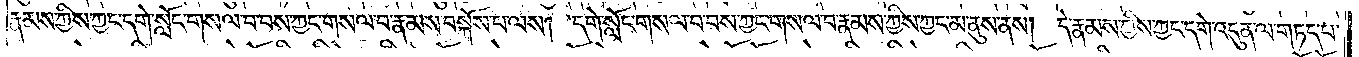རྣམས་ཀྱིས་ཀྱང་དགེ་སློང་གསལ་བ་བས་ཀྱང་གསལ་བ་རྣམས་བསྐོས་པ་ལས། དགེ་སློང་གསལ་བ་བས་ཀྱང་གསལ་བ་རྣམས་ཀྱིས་ཀྱང་མ་ནུས་ནས། དེ་རྣམས་ཀྱིས་ཀྱང་དགེ་འདུན་ལ་གཏད་པ་
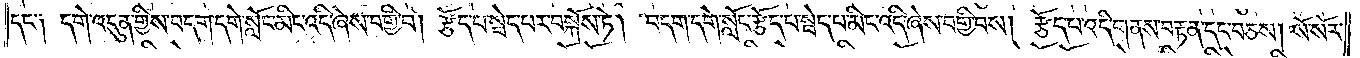དང༌༑ དགེ་འདུན་གྱིས་བདག་དགེ་སློང་མིང་འདི་ཞེས་བགྱི་བ། རྩོད་པ་སྦེད་པར་བསྐོས་ཏེ། བདག་དགེ་སློང་རྩོད་པ་སྦེད་པ་མིང་འདི་ཞེས་བགྱི་བས། རྩོད་པ་འདི་གནས་བརྟན་དང་བཅས། སོ་སོར་
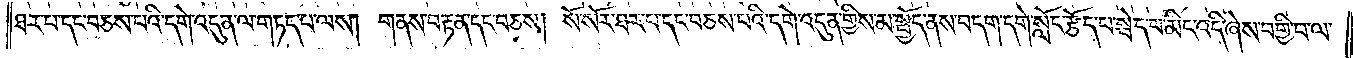ཐར་པ་དང་བཅས་པའི་དགེ་འདུན་ལ་གཏད་པ་ལས། གནས་བརྟན་དང་བཅས། སོ་སོར་ཐར་པ་དང་བཅས་པའི་དགེ་འདུན་གྱིས་མ་སྤྱོད་ནས་བདག་དགེ་སློང་རྩོད་པ་སྦེད་པ་མིང་འདི་ཞེས་བགྱི་བ་ལ་
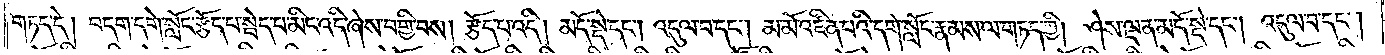གཏད་དེ། བདག་དགེ་སློང་རྩོད་པ་སྦེད་པ་མིང་འདི་ཞེས་བགྱི་བས། རྩོད་པ་འདི། མདོ་སྡེ་དང༌། འདུལ་བ་དང༌། མ་མོ་འཛིན་པའི་དགེ་སློང་རྣམས་ལ་གཏད་ཀྱི། ཤེས་ལྡན་མདོ་སྡེ་དང༌། འདུལ་བ་དང༌།
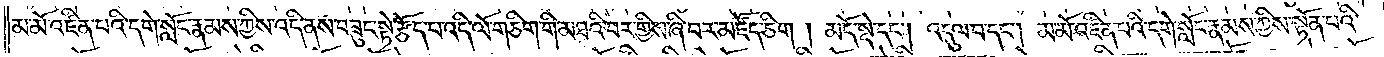མ་མོ་འཛིན་པའི་དགེ་སློང་རྣམས་ཀྱིས་འདི་ནས་བཟུང་སྟེ་རྩོད་པའི་ལོ་གཅིག་གི་མཐའི་བར་གྱིས་ཞི་བར་མཛོད་ཅིག །མདོ་སྡེ་དང༌། འདུལ་བ་དང༌། མ་མོ་འཛིན་པའི་དགེ་སློང་རྣམས་ཀྱིས་སྟོན་པའི་
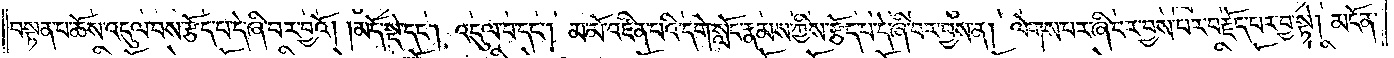བསྟན་པ་ཆོས་འདུལ་བས་རྩོད་པ་དེ་ཞི་བར་བྱའོ། །མདོ་སྡེ་དང༌། འདུལ་བ་དང༌། མ་མོ་འཛིན་པའི་དགེ་སློང་རྣམས་ཀྱིས་རྩོད་པ་དེ་ཞི་བར་བྱས་ན། ལེགས་པར་ཞི་བར་བྱས་པར་བརྗོད་པར་བྱ་སྟེ། མངོན་
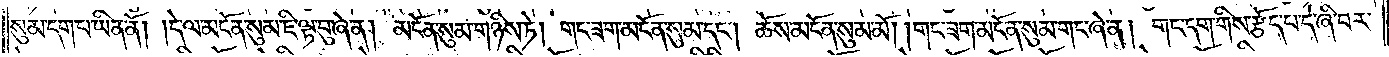སུམ་དག་པ་ཡིན་ནོ། །དེ་ལ་མངོན་སུམ་ཇི་ལྟ་བུ་ཞེ་ན། མངོན་སུམ་གཉིས་ཏེ། གང་ཟག་མངོན་སུམ་དང༌། ཆོས་མངོན་སུམ་མོ། །གང་ཟག་མངོན་སུམ་གང་ཞེ་ན། གང་དག་གིས་རྩོད་པ་དེ་ཞི་བར་
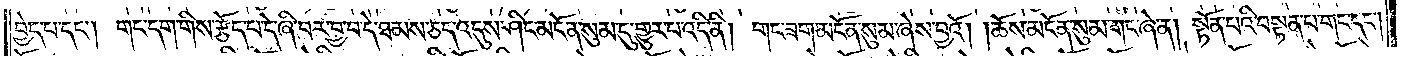བྱེད་པ་དང༌། གང་དག་གིས་རྩོད་པ་དེ་ཞི་བར་བྱ་བ་དེ་ཐམས་ཅད་འདུས་ཤིང་མངོན་སུམ་དུ་གྱུར་པ་འདི་ནི། གང་ཟག་མངོན་སུམ་ཞེས་བྱའོ། །ཆོས་མངོན་སུམ་གང་ཞེ་ན། སྟོན་པའི་བསྟན་པ་གང་དང༌།
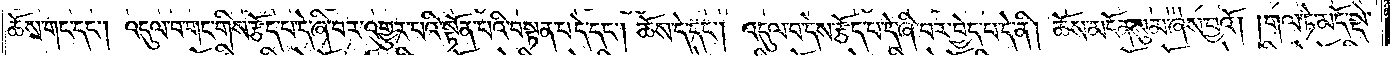ཆོས་གང་དང༌། འདུལ་བ་གང་གིས་རྩེད་པ་དེ་ཞི་བར་འགྱུར་བའི་སྟོན་པའི་བསྟན་པ་དེ་དང༌། ཆོས་དེ་དང༌། འདུལ་བ་དེས་རྩོད་པ་དེ་ཞི་བར་བྱེད་པ་དེ་ནི། ཆོས་མངོན་སུམ་ཞེས་བྱའོ། །གལ་ཏེ་མདོ་སྡེ་
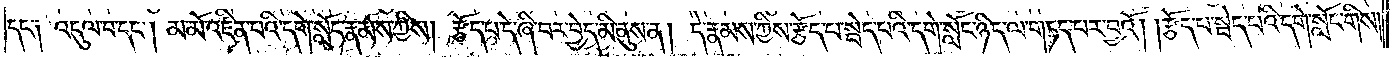དང༌། འདུལ་བ་དང༌། མ་མོ་འཛིན་པའི་དགེ་སློང་རྣམས་ཀྱིས། རྩོད་པ་དེ་ཞི་བར་བྱེད་མི་ནུས་ན། དེ་རྣམས་ཀྱིས་རྩོད་པ་སྦེད་པའི་དགེ་སློང་ཉིད་ལ་གཏད་པར་བྱའོ། །རྩོད་པ་སྦེད་པའི་དགེ་སློང་གིས།
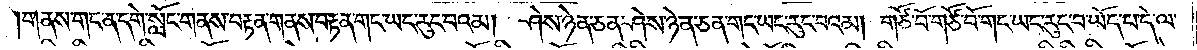།གནས་གང་ན་དགེ་སློང་གནས་བརྟན་གནས་བརྟན་གང་ཡང་རུང་བའམ། ཤེས་ཉེན་ཅན་ཤེས་ཉེན་ཅན་གང་ཡང་རུང་བའམ། གཙོ་བོ་གཙོ་བོ་གང་ཡང་རུང་བ་ཡོད་པ་དེ་ལ་
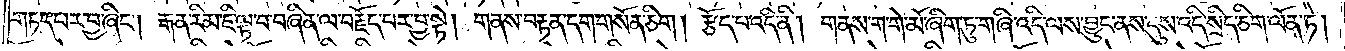གཏད་པར་བྱ་ཞིང༌། རྒན་རིམ་ཇི་ལྟ་བ་བཞིན་ལ་བརྗོད་པར་བྱ་སྟེ། གནས་བརྟན་དག་གསོན་ཅིག །རྩོད་པ་འདི་ནི། གནས་ག་གེ་མོ་ཞིག་ཏུ་གཞི་འདི་ལས་བྱུང་ནས་དུས་འདི་སྲིད་ཅིག་ལོན་ཏེ།
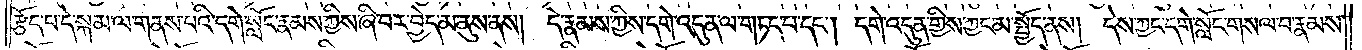རྩོད་པ་དེ་སྐམ་ལ་གནས་པའི་དགེ་སློང་རྣམས་ཀྱིས་ཞི་བར་བྱེད་མ་ནུས་ནས། དེ་རྣམས་ཀྱིས་དགེ་འདུན་ལ་གཏང་བ་དང༌། དགེ་འདུན་གྱིས་ཀྱང་མ་སྤྱོད་ནས། དེས་ཀྱང་དགེ་སློང་གསལ་བ་རྣམས་
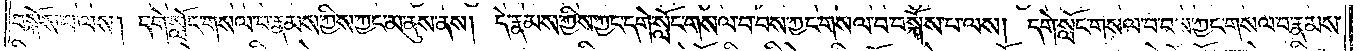བསྐོས་པ་ལས། དགེ་སློང་གསལ་བ་རྣམས་ཀྱིས་ཀྱང་མ་ནུས་ནས། དེ་རྣམས་ཀྱིས་ཀྱང་དགེ་སློང་གསལ་བ་བས་ཀྱང་གསལ་བ་བསྐོས་པ་ལས། དགེ་སློང་གསལ་བ་བས་ཀྱང་གསལ་བ་རྣམས་
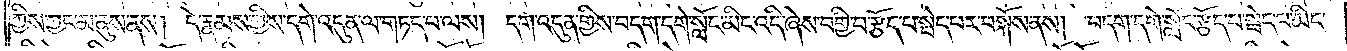ཀྱིས་ཀྱང་མ་ནུས་ནས། དེ་རྣམས་ཀྱིས་དགེ་འདུན་ལ་གཏང་པ་ལས། དགེ་འདུན་གྱིས་བདག་དགེ་སློང་མིང་འདི་ཞེས་བགྱི་བ་རྩོད་པ་སྦེད་པར་བསྐོས་ནས། བདག་དགེ་སློང་རྩོད་པ་སྦེད་པ་མིང་
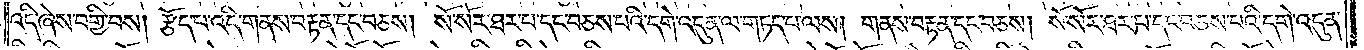འདི་ཞེས་བགྱི་བས། རྩོད་པ་འདི་གནས་བརྟན་དང་བཅས། སོ་སོར་ཐར་པ་དང་བཅས་པའི་དགེ་འདུན་ལ་གཏད་པ་ལས། གནས་བརྟན་དང་བཅས། སོ་སོར་ཐར་པ་དང་བཅས་པའི་དགེ་འདུན་
